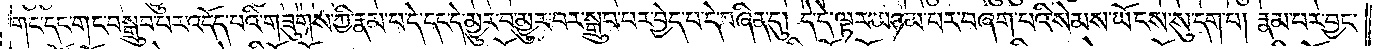གང་དང་གང་བསྒྲུབ་པར་འདོད་པའི་གཟུགས་ཀྱི་རྣམ་པ་དེ་དང་དེ་མྱུར་བ་མྱུར་བར་སྒྲུབ་པར་བྱེད་པ་དེ་བཞིན་དུ། དེ་དེ་ལྟར་མཉམ་པར་བཞག་པའི་སེམས་ཡོངས་སུ་དག་པ། རྣམ་པར་བྱང་
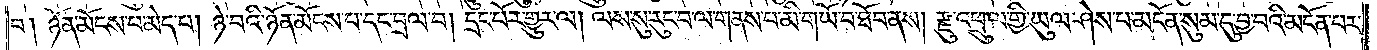བ། ཉོན་མོངས་པ་མེད་པ། ཉེ་བའི་ཉོན་མོངས་པ་དང་བྲལ་བ། དྲང་པོར་གྱུར་ལ། ལས་སུ་རུང་བ་ལ་གནས་པ་མི་གཡོ་བ་ཐོབ་ནས། རྫུ་འཕྲུལ་གྱི་ཡུལ་ཤེས་པ་མངོན་སུམ་དུ་བྱ་བའི་མངོན་པར་
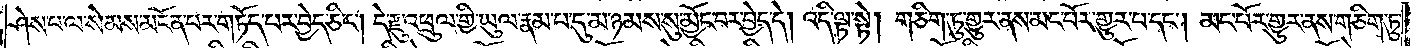ཤེས་པ་ལ་སེམས་མངོན་པར་གཏོད་པར་བྱེད་ཅིང༌། དེ་རྫུ་འཕྲུལ་གྱི་ཡུལ་རྣམ་པ་དུ་མ་ཉམས་སུ་མྱོང་བར་བྱེད་དེ། འདི་ལྟ་སྟེ། གཅིག་ཏུ་གྱུར་ནས་མང་པོར་གྱུར་པ་དང༌། མང་པོར་གྱུར་ནས་གཅིག་ཏུ་
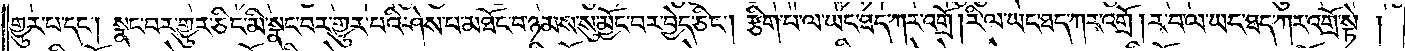གྱུར་པ་དང༌། སྣང་བར་གྱུར་ཅིང་མི་སྣང་བར་གྱུར་པའི་ཤེས་པ་མཐོང་བ་ཉམས་སུ་མྱོང་བར་བྱེད་ཅིང༌། རྩིག་པ་ལ་ཡང་ཐད་ཀར་འགྲོ། རི་ལ་ཡང་ཐད་ཀར་འགྲོ། ར་བ་ལ་ཡང་ཐད་ཀར་འགྲོ་སྟེ།
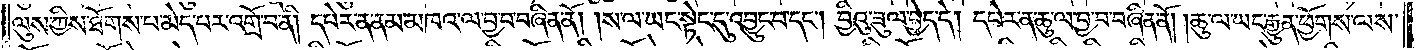ལུས་ཀྱིས་ཐོགས་པ་མེད་པར་འགྲོ་བ་ནི། དཔེར་ན་ནམ་མཁའ་ལ་བྱ་བ་བཞིན་ནོ། །ས་ལ་ཡང་སྟེང་དུ་འབྱུང་བ་དང༌། བྱིའུ་ཟུལ་བྱེད་དེ། དཔེར་ན་ཆུ་ལ་བྱ་བ་བཞིན་ནོ། །ཆུ་ལ་ཡང་རྒྱུན་ཕྱོགས་ལས་
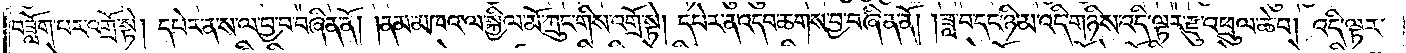བཟློག་པར་འགྲོ་སྟེ། དཔེར་ན་ས་ལ་བྱ་བ་བཞིན་ནོ། །ནམ་མཁའ་ལ་སྐྱིལ་མོ་ཀྲུང་གིས་འགྲོ་སྟེ། དཔེར་ན་འདབ་ཆགས་བྱ་བཞིན་ནོ། །ཟླ་བ་དང་ཉི་མ་འདི་གཉིས་འདི་ལྟར་རྫུ་འཕྲུལ་ཆེ་བ། འདི་ལྟར་
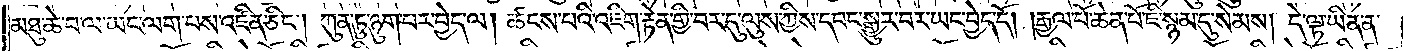མཐུ་ཆེ་བ་ལ་ཡང་ལག་པས་འཛིན་ཅིང༌། ཀུན་ཏུ་ཉུག་པར་བྱེད་ལ། ཚངས་པའི་འཇིག་རྟེན་གྱི་བར་དུ་ལུས་ཀྱིས་དབང་སྒྱུར་བར་ཡང་བྱེད་དོ། །རྒྱལ་པོ་ཆེན་པོ་ཇི་སྙམ་དུ་སེམས། དེ་ལྟ་ཡིན་ན་
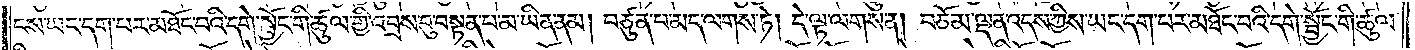ངས་ཡང་དག་པར་མཐོང་བའི་དགེ་སྦྱོང་གི་ཚུལ་གྱི་འབྲས་བུ་བསྟན་པ་མ་ཡིན་ནམ། བཙུན་པ་མད་ལགས་ཏེ། དེ་ལྟ་ལགས་ན། བཅོམ་ལྡན་འདས་ཀྱིས་ཡང་དག་པར་མཐོང་བའི་དགེ་སྦྱོང་གི་ཚུལ་
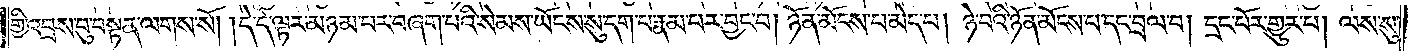གྱི་འབྲས་བུ་བསྟན་ལགས་སོ། །དེ་དེ་ལྟར་མཉམ་པར་བཞག་པའི་སེམས་ཡོངས་སུ་དག་པ་རྣམ་པར་བྱང་བ། ཉོན་མོངས་པ་མེད་པ། ཉེ་བའི་ཉོན་མོངས་པ་དང་བྲལ་བ། དྲང་པོར་གྱུར་པ། ལས་སུ་
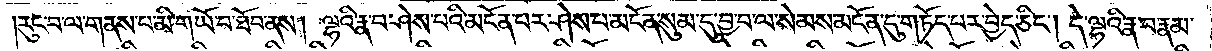།རུང་བ་ལ་གནས་པ་མི་གཡོ་བ་ཐོབ་ནས། ལྷའི་རྣ་བ་ཤེས་པའི་མངོན་པར་ཤེས་པ་མངོན་སུམ་དུ་བྱ་བ་ལ་སེམས་མངོན་དུ་གཏོད་པར་བྱེད་ཅིང༌། དེ་ལྷའི་རྣ་བ་རྣམ་
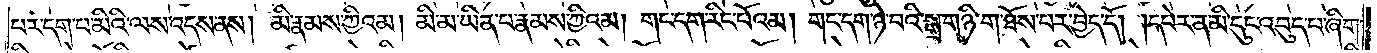པར་དག་པ་མིའི་ལས་འདས་ནས། མི་རྣམས་ཀྱིའམ། མི་མ་ཡིན་པ་རྣམས་ཀྱིའམ། གང་དག་རིང་པོའམ། གང་དག་ཉེ་བའི་སྒྲ་གཉི་ག་ཐོས་པར་བྱེད་དོ། །དཔེར་ན་མི་དུང་འབུད་པ་ཞིག་
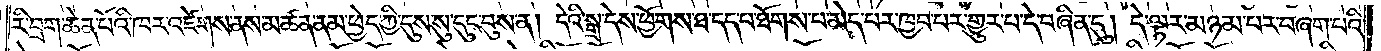རི་བྲག་ཆེན་པོའི་ཁར་འཛེགས་ནས་མཚན་ནམ་ཕྱེད་ཀྱི་དུས་སུ་དུང་བུས་ན། དེའི་སྒྲ་དེས་ཕྱོགས་ཐ་དད་པ་ཐོགས་པ་མེད་པར་ཁྱབ་པར་གྱུར་པ་དེ་བཞིན་དུ། དེ་ལྟར་མཉམ་པར་བཞག་པའི་
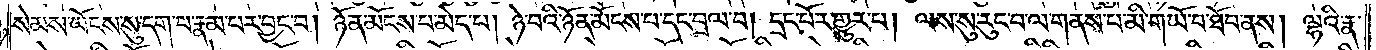སེམས་ཡོངས་སུ་དག་པ་རྣམ་པར་བྱང་བ། ཉོན་མོངས་པ་མེད་པ། ཉེ་བའི་ཉོན་མོངས་པ་དང་བྲལ་བ། དྲང་པོར་གྱུར་པ། ལས་སུ་རུང་བ་ལ་གནས་པ་མི་གཡོ་བ་ཐོབ་ནས། ལྷའི་རྣ་
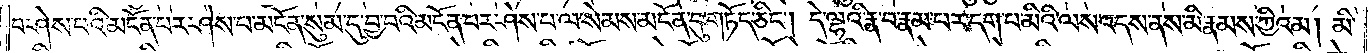བ་ཤེས་པའི་མངོན་པར་ཤེས་པ་མངོན་སུམ་དུ་བྱ་བའི་མངོན་པར་ཤེས་པ་ལ་སེམས་མངོན་དུ་གཏོད་ཅིང༌། དེ་ལྷའི་རྣ་བ་རྣམ་པར་དག་པ་མིའི་ལས་འདས་ནས་མི་རྣམས་ཀྱིའམ། མི་
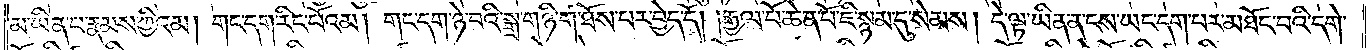མ་ཡིན་པ་རྣམས་ཀྱིའམ། གང་དག་རིང་པོའམ། གང་དག་ཉེ་བའི་སྒྲ་གཉི་ག་ཐོས་པར་བྱེད་དོ། །རྒྱལ་པོ་ཆེན་པོ་ཇི་སྙམ་དུ་སེམས། དེ་ལྟ་ཡིན་ན་ངས་ཡང་དག་པར་མཐོང་བའི་དགེ་
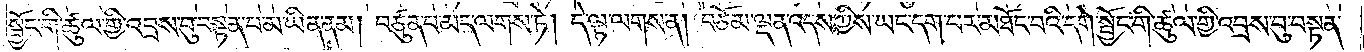སྦྱོང་གི་ཚུལ་གྱི་འབྲས་བུ་བསྟན་པ་མ་ཡིན་ནམ། བཙུན་པ་མད་ལགས་ཏེ། དེ་ལྟ་ལགས་ན། བཅོམ་ལྡན་འདས་ཀྱིས་ཡང་དག་པར་མཐོང་བའི་དགེ་སྦྱོང་གི་ཚུལ་གྱི་འབྲས་བུ་བསྟན་
